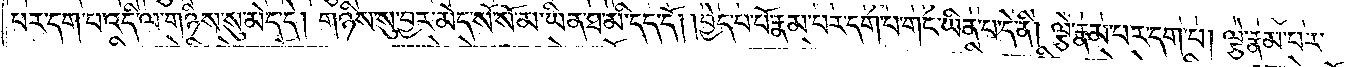པར་དག་པ་འདི་ལ་གཉིས་སུ་མེད་དེ། གཉིས་སུ་བྱར་མེད་སོ་སོ་མ་ཡིན་ཐ་མི་དད་དོ། །བྱེད་པ་པོ་རྣམ་པར་དག་པ་གང་ཡིན་པ་དེ་ནི། ལྕེ་རྣམ་པར་དག་པ། ལྕེ་རྣམ་པར་
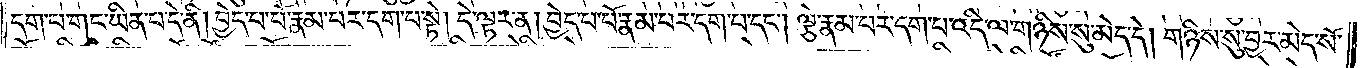དག་པ་གང་ཡིན་པ་དེ་ནི། བྱེད་པ་པོ་རྣམ་པར་དག་པ་སྟེ། དེ་ལྟར་ན། བྱེད་པ་པོ་རྣམ་པར་དག་པ་དང༌། ལྕེ་རྣམ་པར་དག་པ་འདི་ལ་གཉིས་སུ་མེད་དེ། གཉིས་སུ་བྱར་མེད་སོ་
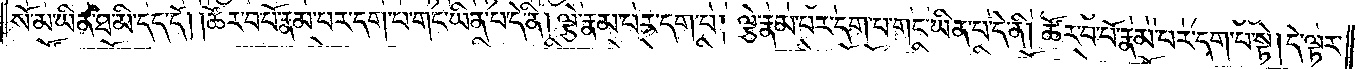སོ་མ་ཡིན་ཐ་མི་དད་དོ། །ཚོར་བ་པོ་རྣམ་པར་དག་པ་གང་ཡིན་པ་དེ་ནི། ལྕེ་རྣམ་པར་དག་པ། ལྕེ་རྣམ་པར་དག་པ་གང་ཡིན་པ་དེ་ནི། ཚོར་བ་པོ་རྣམ་པར་དག་པ་སྟེ། དེ་ལྟར་
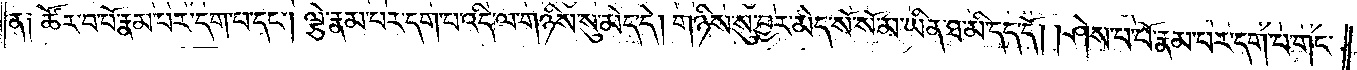ན༑ ཚོར་བ་པོ་རྣམ་པར་དག་པ་དང༌། ལྕེ་རྣམ་པར་དག་པ་འདི་ལ་གཉིས་སུ་མེད་དེ། གཉིས་སུ་བྱར་མེད་སོ་སོ་མ་ཡིན་ཐ་མི་དད་དོ། །ཤེས་པ་པོ་རྣམ་པར་དག་པ་གང་
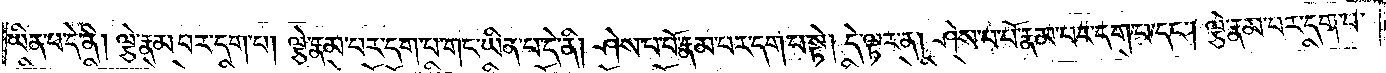ཡིན་པ་དེ་ནི། ལྕེ་རྣམ་པར་དག་པ། ལྕེ་རྣམ་པར་དག་པ་གང་ཡིན་པ་དེ་ནི། ཤེས་པ་པོ་རྣམ་པར་དག་པ་སྟེ། དེ་ལྟར་ན། ཤེས་པ་པོ་རྣམ་པར་དག་པ་དང༌། ལྕེ་རྣམ་པར་དག་པ་
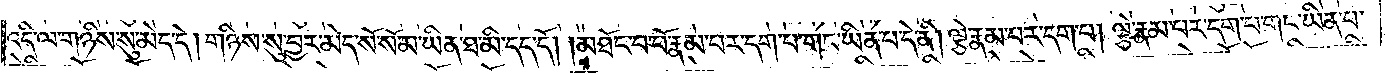འདི་ལ་གཉིས་སུ་མེད་དེ། གཉིས་སུ་བྱར་མེད་སོ་སོ་མ་ཡིན་ཐ་མི་དད་དོ། །མཐོང་བ་པོ་རྣམ་པར་དག་པ་གང་ཡིན་པ་དེ་ནི། ལྕེ་རྣམ་པར་དག་པ། ལྕེ་རྣམ་པར་དག་པ་གང་ཡིན་པ་
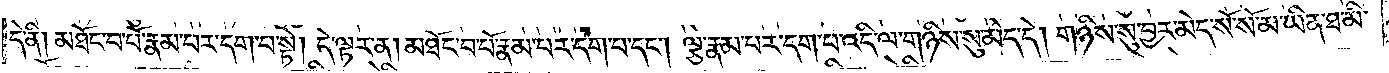དེ་ནི། མཐོང་བ་པོ་རྣམ་པར་དག་པ་སྟེ། དེ་ལྟར་ན། མཐོང་བ་པོ་རྣམ་པར་དག་པ་དང༌། ལྕེ་རྣམ་པར་དག་པ་འདི་ལ་གཉིས་སུ་མེད་དེ། གཉིས་སུ་བྱར་མེད་སོ་སོ་མ་ཡིན་ཐ་མི་
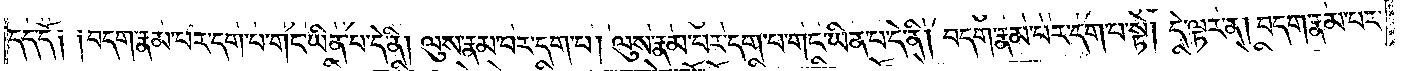དད་དོ༑ ༑བདག་རྣམ་པར་དག་པ་གང་ཡིན་པ་དེ་ནི། ལུས་རྣམ་པར་དག་པ། ལུས་རྣམ་པར་དག་པ་གང་ཡིན་པ་དེ་ནི། བདག་རྣམ་པར་དག་པ་སྟེ། དེ་ལྟར་ན། བདག་རྣམ་པར་
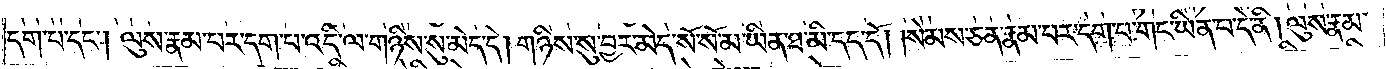དག་པ་དང༌། ལུས་རྣམ་པར་དག་པ་འདི་ལ་གཉིས་སུ་མེད་དེ། གཉིས་སུ་བྱར་མེད་སོ་སོ་མ་ཡིན་ཐ་མི་དད་དོ། །སེམས་ཅན་རྣམ་པར་དག་པ་གང་ཡིན་པ་དེ་ནི། ལུས་རྣམ་
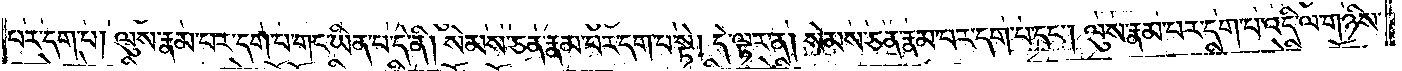པར་དག་པ། ལུས་རྣམ་པར་དག་པ་གང་ཡིན་པ་དེ་ནི། སེམས་ཅན་རྣམ་པར་དག་པ་སྟེ། དེ་ལྟར་ན། སེམས་ཅན་རྣམ་པར་དག་པ་དང༌། ལུས་རྣམ་པར་དག་པ་འདི་ལ་གཉིས་
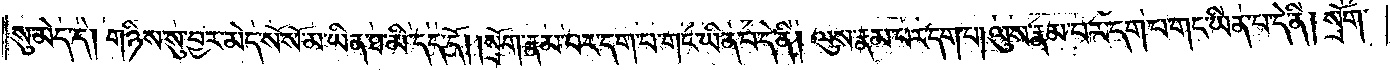སུ་མེད་དེ། གཉིས་སུ་བྱར་མེད་སོ་སོ་མ་ཡིན་ཐ་མི་དད་དོ། །སྲོག་རྣམ་པར་དག་པ་གང་ཡིན་པ་དེ་ནི། ལུས་རྣམ་པར་དག་པ། ལུས་རྣམ་པར་དག་པ་གང་ཡིན་པ་དེ་ནི། སྲོག་
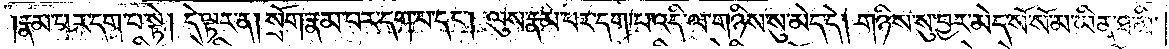རྣམ་པར་དག་པ་སྟེ། དེ་ལྟར་ན། སྲོག་རྣམ་པར་དག་པ་དང༌། ལུས་རྣམ་པར་དག་པ་འདི་ལ་གཉིས་སུ་མེད་དེ། གཉིས་སུ་བྱར་མེད་སོ་སོ་མ་ཡིན་ཐ་མི་
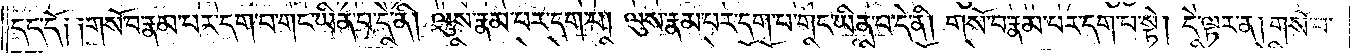དད་དོ༑ ༑གསོ་བ་རྣམ་པར་དག་པ་གང་ཡིན་པ་དེ་ནི། ལུས་རྣམ་པར་དག་པ། ལུས་རྣམ་པར་དག་པ་གང་ཡིན་པ་དེ་ནི། གསོ་བ་རྣམ་པར་དག་པ་སྟེ། དེ་ལྟར་ན། གསོ་བ་
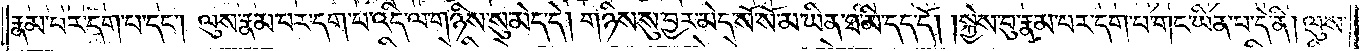རྣམ་པར་དག་པ་དང༌། ལུས་རྣམ་པར་དག་པ་འདི་ལ་གཉིས་སུ་མེད་དེ། གཉིས་སུ་བྱར་མེད་སོ་སོ་མ་ཡིན་ཐ་མི་དད་དོ། །སྐྱེས་བུ་རྣམ་པར་དག་པ་གང་ཡིན་པ་དེ་ནི། ལུས་
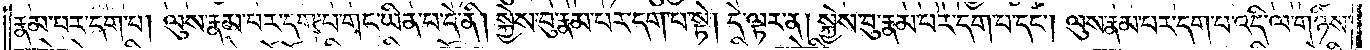རྣམ་པར་དག་པ། ལུས་རྣམ་པར་དག་པ་གང་ཡིན་པ་དེ་ནི། སྐྱེས་བུ་རྣམ་པར་དག་པ་སྟེ། དེ་ལྟར་ན། སྐྱེས་བུ་རྣམ་པར་དག་པ་དང༌། ལུས་རྣམ་པར་དག་པ་འདི་ལ་གཉིས་
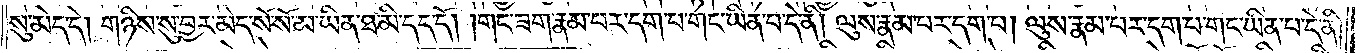སུ་མེད་དེ། གཉིས་སུ་བྱར་མེད་སོ་སོ་མ་ཡིན་ཐ་མི་དད་དོ། །གང་ཟག་རྣམ་པར་དག་པ་གང་ཡིན་པ་དེ་ནི། ལུས་རྣམ་པར་དག་པ། ལུས་རྣམ་པར་དག་པ་གང་ཡིན་པ་དེ་ནི།
